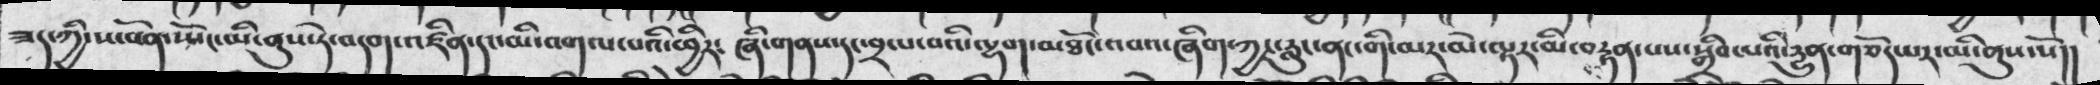ཟད་ཀྱི་ས་བོན་སྤོང་མི་ནུས་ཏེ་བདག་འཛིན་དང་མི་འགལ་པའི་ཕྱིར༴ ཞི་གནས་དང་བྲལ་བའི་ལྷག་མཐོང་འབའ་ཞིག་ཀྱང་རླུང་ནང་གི་མར་མེ་ལྟར་མི་བརྟན་པས་སྒྲིབ་པའི་དྱུན་གཅོད་པར་མི་ནུས་སོ།།
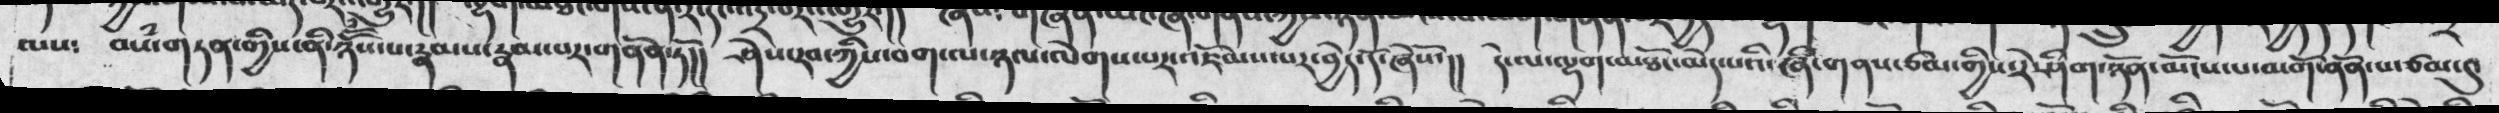ལས༴   བསཾ་གཏན་གྱིས་ནི་ཉོོཾས་པ་རྣམས་རྣམ་པར་གནོན་ཏོ།།  ཤེས་རབ་ཀྱིས་བག་ལ་ཉལ་ལེགས་པར་འཇོམས་པར་བྱེད་དོ་ཞེསོ་།།   དེ་ལ་ལྷག་མཐོང་མེད་པའི་ཞི་གནས་ཙམ་གྱིས་རེ་ཤིག་ཉོན་མོངས་པ་མགོ་ནོན་པ་ཙམ་དུ་
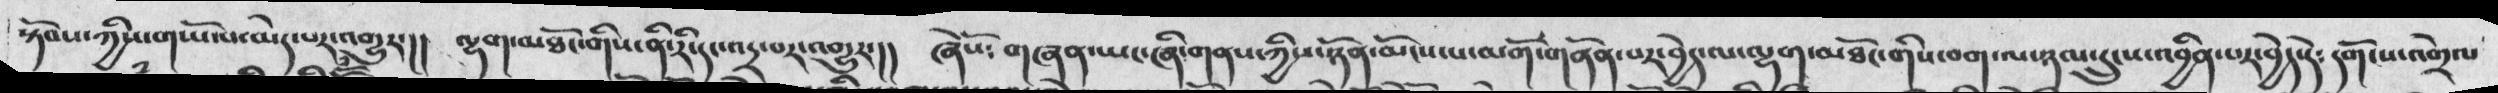སྟོབས་ཀྱིས་གཡོལ་མེད་པར་འགྱུར་།།  ལྷག་མཐོང་གིས་ནི་རི་དང་འདྲ་པར་འགྱུར་།།  ཞེསོ༴ གཞན་ཡང་ཞི་གནས་ཀྱིས་ཉོན་མོངས་པ་མགོ་གནོན་པར་བྱེད་ལ་ལྷག་མཐོང་གིས་བག་ལ་ཉལ་དྲུངས་འབྱིན་པར་བྱེད་དེ༴ དགོངས་འགྲེལ
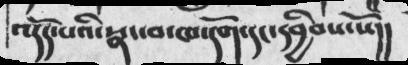འདོད་པའི་སྣང་བ་ཁ་དོག་དང་དབྱིབས་སོ།།
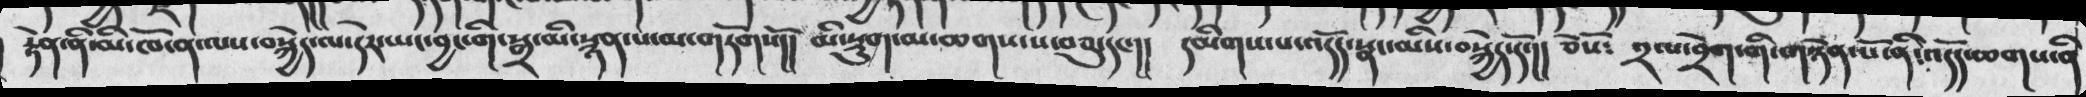རྟེན་ནི་མི་ཁོ་ན་ལས་བསྐྱེད་ལ་དེར་ཡང་བྱང་གི་སྒྲ་མི་སྙན་པ་མ་གཏོགསོ།།  མི་སྡུག་མ་ཆགས་པ་བཅུ་དང་།།  དམིགས་པ་འདོད་སྣང་མིས་བསྐྱེད་དོ་།།  ཅེསོ༴  ༢་པ་བྲེག་གི་གཉེན་པོ་ནི་འདོད་ཆགས་ནི
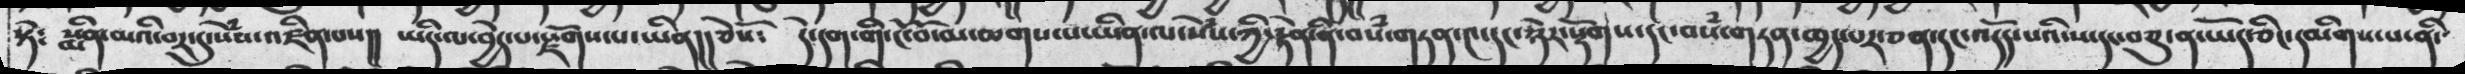སྟེ༴  སྨིན་མའི་བར་དུ་སེཾས་འཛིན་པས།།  ཡིད་ལ་བྱེད་པ་རྫོགས་པ་ཡིན།།  ཅེསོ༴  དེ་དག་གི་ངོ་བོ་མ་ཆགས་པ་ཡིན་ལ་སེཾས་ཀྱི་རྟེན་ནི་བསཾ་གཏན་༤་དང་ཉེར་སྡོགས་དང་བསཾ་གཏན་ཁྱད་པར་ཅན་དང་འདོད་པའི་ས་དང་བཅུ་ན་ཡོད་ཅིང་དམིགས་པ་ནི་
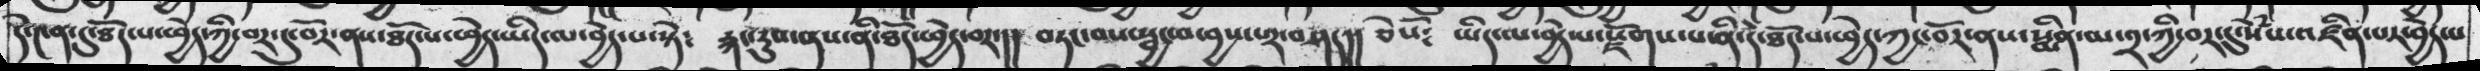དེ་༤ན་དུ་ཐོད་པ་ཕྱེད་ཀྱི་བར་དུ་བོར་ནས་ཐོད་པ་ཕྱེད་ཡིད་མ་བྱེད་པ་སྟེ༴  རྐང་རུས་ནས་ནི་ཐོད་ཕྱེད་བར་།།  བཏང་བས་སྦྱང་བ་བྱས་་བཤད།།  ཅེསོ༴  ཡིད་ལ་བྱེད་པ་རྫོགས་པ་ནི་དེ་ཐོད་པ་ཕྱེད་ཀྱང་བོར་ནས་སྨིན་མ་༢་ཀྱི་བར་དུ་སེཾས་འཛིན་པར་བྱེད་པ
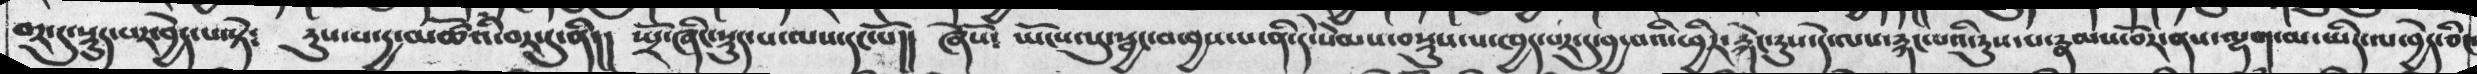བར་དུ་སྡུད་པར་བྱེད་པ་སྟེ༴    རུས་པ་དྱ་མཚོའི་བར་དུ་ནི།།   སྤྲོ་ཞིང་སྡུད་པ་ལས་དང་པོ།།   ཞེསོ༴   ཡོངས་སུ་སྦྱང་བ་བྱས་པ་ནི་དེ་སེམས་བསྡུས་པ་ཁྱད་པར་དུ་བྱ་བའི་ཕྱིར་རྐེང་རུས་པ་དེ་ལས་རྐང་པའི་རུས་པ་རྣམས་བོར་ནས་ལྷག་མ་ཡིད་ལ་བྱེད་ཅིང་
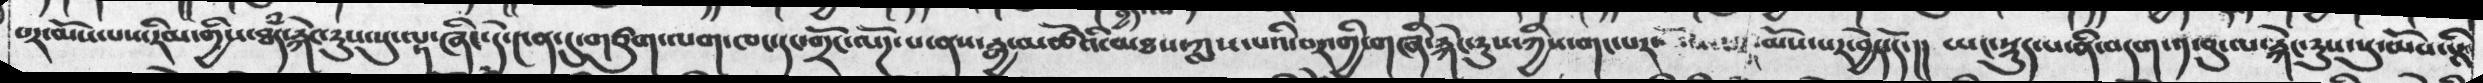པར་མོས་པས་རིམ་གྱིས་ཐཾད་རྐེང་རུས་སུ་ལྟ་ཞིང་དེ་༤ན་དུ་གཙུག་ལག་ཁང་དང་གྲོང་ལོཌ་པ་ནས་རྒྱ་མཚོའི་མཐས་ཀླས་པའི་བར་གྱི་གཞི་རྐེང་རུས་ཀྱིས་གང་པར་      མོས་པར་བྱེད་དོ་།།  ཡང་སྡུད་པ་ནི་བདག་༡་བུ་ལ་རྐེང་རུས་པུ་མོས་སྡི
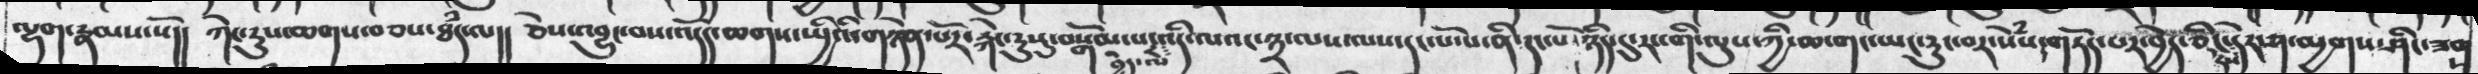ལྷག་རྣམས་སོ།།  ཀེང་རུས་ཆགས་བཅས་ཐཾད་ལ།།  ཅེས་འབྱུང་བས་འདོད་ཆགས་སྤྱིའི་གཉེན་པོར་རྐེང་རུསུ་བསྒོམ་པར་བྱེད་ལ་འདི་ལའང་༣་ལས་ལས་དང་པོ་པ་ནི་དང་པོ་ཉིད་དུ་རང་གི་ལུས་ཀྱི་ཆ་གང་ཡང་རུང་བར་སེཾས་གཏོད་པར་བྱེད་ཅིངས་དེར་ཤ་མྱགས་ཤིང་ཟགས
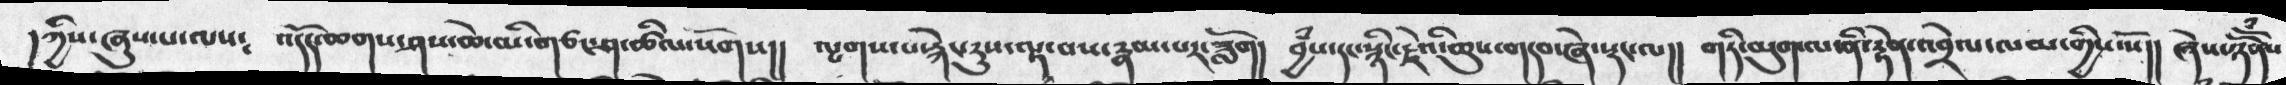དཀྱིས་ཞུས་པ་ལས༴    འདོད་ཆགས་ཤས་ཆེ་མི་གཙང་ཤ་ཚིལ་སོགས།།   ལྤགས་པ་རྐེང་རུས་ལྟ་བས་རྣམ་པར་ཟློག།   བྱཾས་དང་སྙིང་རྗེའི་ཆུས་གདབ་ཞེ་སྡང་ལ།།   གཏི་མུག་ལ་ནི་རྟེན་འབྲེལ་ལམ་གྱིས་ཡོ།།   ཞེས་ཉོོཾནས
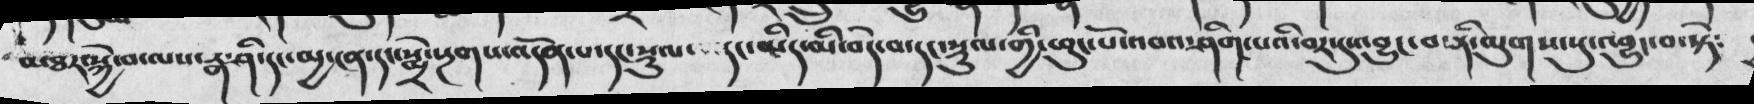མཐར་སྐྱེ་བ་ལས་རྒ་ཤི་དང་མྱ་ངན་དང་སྨྲེ་སྔགས་འདོན་པ་དང་སྡུལ་དང་ཡིད་མི་བདེ་བ་དང་སྡུལ་གྱི་ཕུང་པོ་འབའ་ཤིག་པའི་བར་དུ་འབྱུང་བ་ནི་ལུགས་སུ་འབྱུང་བ་སྟེ༴
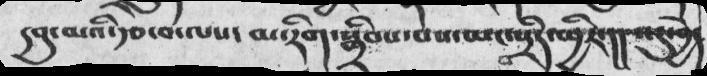དབུ་མའི་རྩ་བ་ལས།   མ་རིག་སྒྲིབས་པས་མང་སྲིད་ཕྱིར་།། འདུ་བྱེད
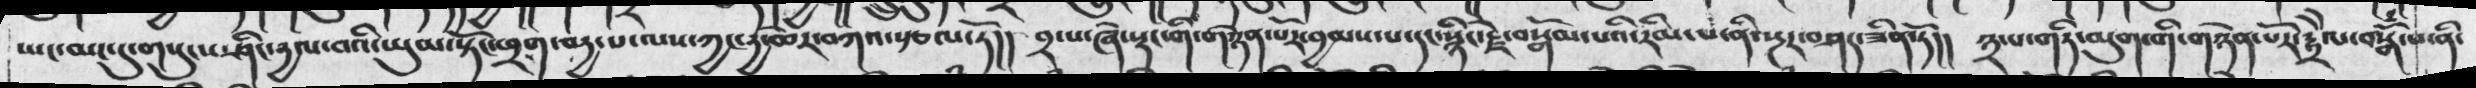ཡང་མང་དུ་གསུངས་ཤིང་དྱལ་བའི་ཡུམ་སྟོང་ཁྲག་བདྱ་པ་ལས་ཀྱང་དྱ་ཆེར་འཀའ་སྩལ་ཏོ།།    ༢་པ་ཞེ་སྡང་གི་གཉེན་པོར་བྱམས་པ་དང་སྙིང་རྗེ་བསྒོམ་པའི་རིམ་པ་ནི་སྔར་བཤད་ཟིན་ཏོ།།    ༣་པ་གཏི་མུག་གི་གཉེན་པོར་རྟྲེེལ་བསྒོཾ་པ་ནི་
